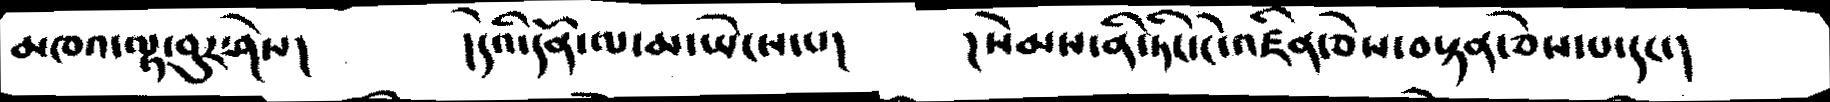མཁའ་ལྟ་བུར་ཤེས།  །དེའི་དོན་ལ་མ་ཡེངས་པ།  །སེམས་པ་ནི་ཏེང་ངེ་འཛིན་ཅེས་བསྟན་ཅེས་པ་དང་།
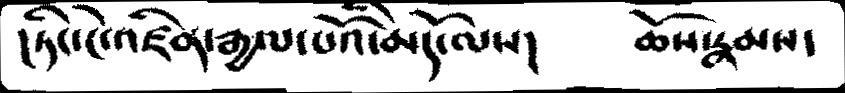།ཏིང་ངེ་འཛིན་རྒྱལ་པོའི་མདོ་ལས།        ཆོས་རྣམས་
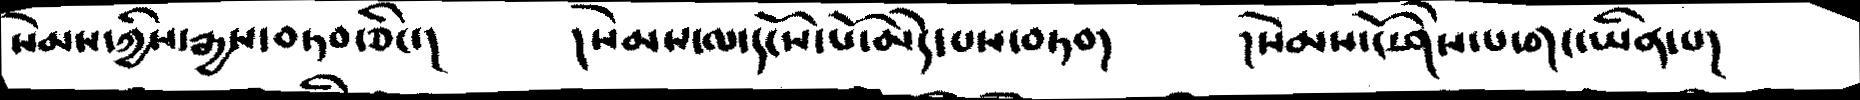སེམས་ཀྱིས་རྒྱས་བཏབ་ཅིང་།     །སེམས་ལ་དངོས་པོ་མེད་པས་བཏབ།    །སེམས་ངོ་ཤེས་པ་གང་ཡིན་པ།
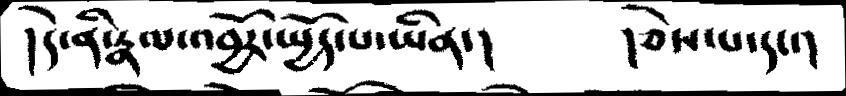།དེ་ནི་རྣལ་འབྱོར་ཡྱོད་པ་ཡིན་།     །ཅེས་པ་དང་།
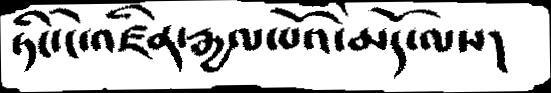ཏིང་ངེ་འཛིན་རྒྱལ་པོའི་མདོ་ལས།
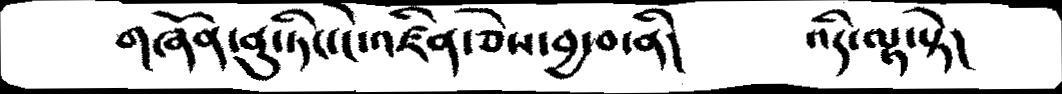གཞོན་ནུ་ཏེང་ངེ་འཛིན་ཅེས་བྱ་བ་ནི།   འདི་ལྟ་སྟེ།
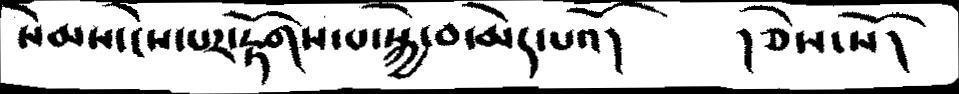སེམས་ངེས་པར་རྟོགས་པ་སྐྱེ་བ་མེད་པའོ།  །ཅེས་སོ།
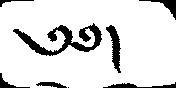༄༅།
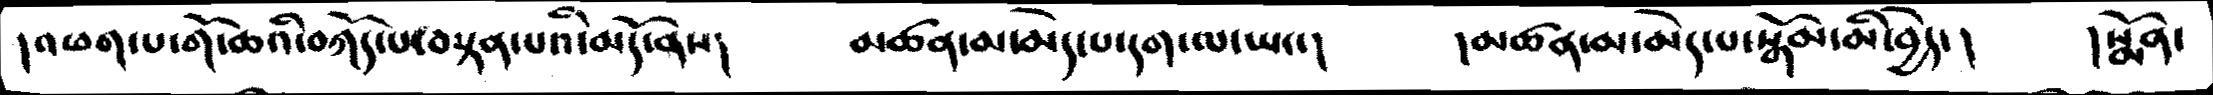།འཕག་པ་གོ་ཆའི་བཀོད་པ་བསྟན་པའི་མདོ་ནས།      མཚན་མ་མེད་པ་དག་ལ་ཡང་།     །མཚན་མ་མེད་པ་བསྒོམ་མི་བྱེད་།     །སྨོན་
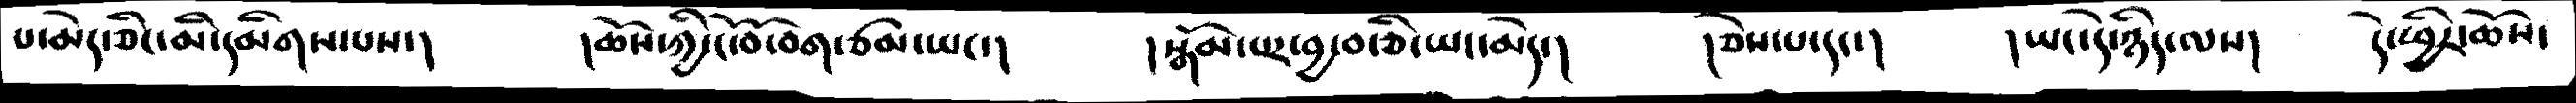པ་མེད་ཅིང་མི་དམིགས་པས།    །ཆོས་ཀྱི་ངོ་བོ་བག་ཙམ་ཡང་།     །སྒོམ་པར་བྱ་བ་ཅི་ཡང་མེད་།     །ཅེས་པ་དང་།    །ཡང་དེ་ཉིད་ལས།     དེ་ཕྱིར་ཆོས་
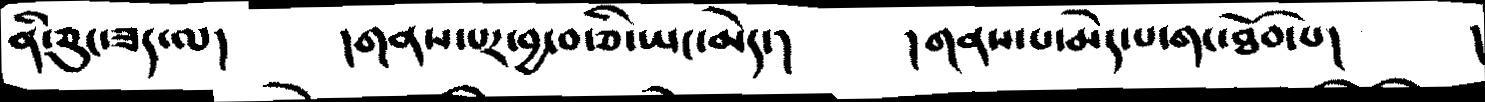ནི་ཅུང་ཟད་ལ།    །གནས་པར་བྱ་བ་ཅི་ཡང་མེད་།      །གནས་པ་མེད་པ་གང་ཐོབ་པ།   །
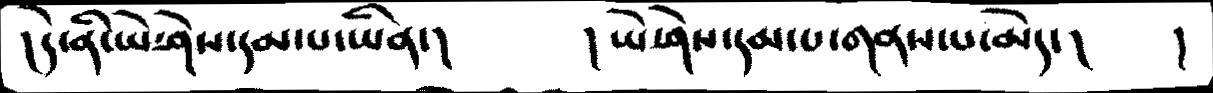།དེ་ནི་ཡེ་ཤེས་དམ་པ་ཡིན་།      ། ཡེ་ཤེས་དམ་པ་གནས་པ་མེད་།    །
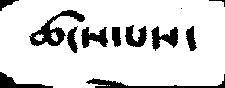ཚངས་པས་
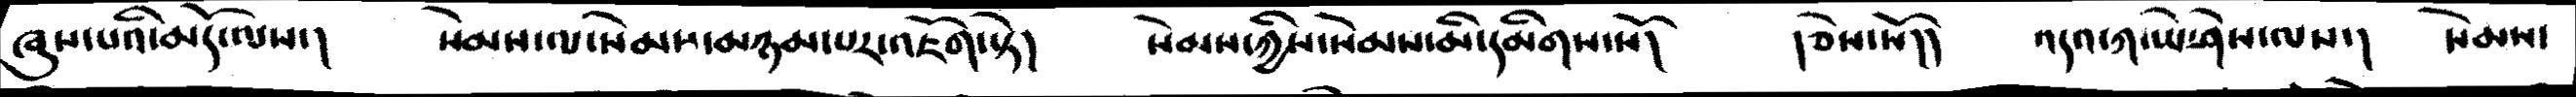ཞུས་པའི་མདོ་ལས་།  སེམས་ལ་སེམས་མཉམ་པར་འཇོག་སྟེ།  སེམས་ཀྱིས་སེམས་མི་དམིགས་སོ།  །ཅེས་སོ།།   འདའ་ཀ་ཡེ་ཤེས་ལས་།   སེམས་
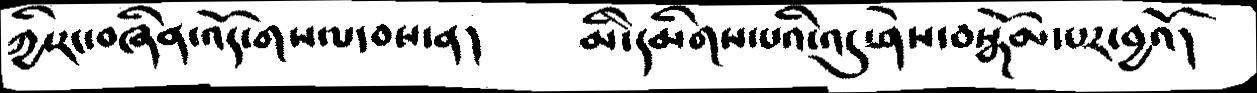ཀྱི་རང་བཞིན་འོད་གསལ་བས་ན།  མི་སམིགས་པའི་འདུ་ཤེས་བསྒོམ་པར་བྱའོ།
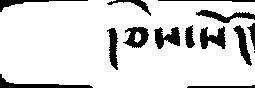།ཅེས་སོ།།
